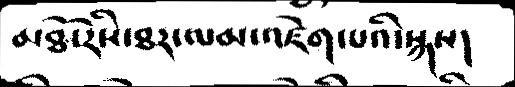མཐོ་རིས་ཐར་ལམ་འཛེག་པའི་སྐས།
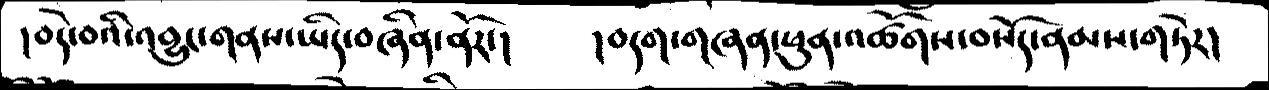།བདེ་བའི་འབྱུང་གནས་ཡིད་བཞིན་ནོར་།   །བདག་གཞན་ཕུན་འཚོགས་བསོད་ནམས་གཏེར།
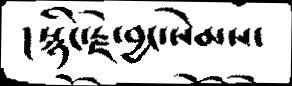།སྙིང་རྗེ་བྱང་སེམས་
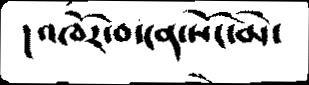།འཁོར་བ་ངན་སོང་མེ་
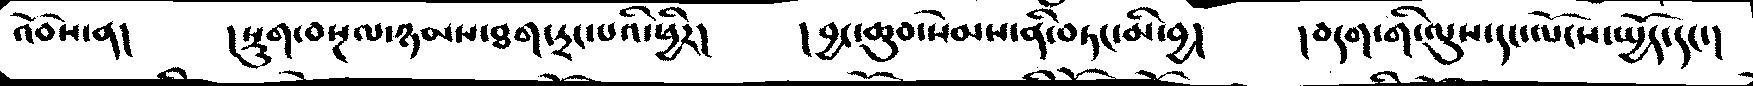འོབས་ན།   །སྡུག་བསྔལ་ཉམས་ཐག་དྲང་པའི་ཕྱིར།   །བྱང་ཆུབ་སེམས་ནི་བཏང་མི་བྱ།    །བདག་གི་ལུས་དང་ལོངས་སྤྱོད་དང་།
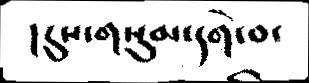།དུས་གསུམ་དགེ་བ་
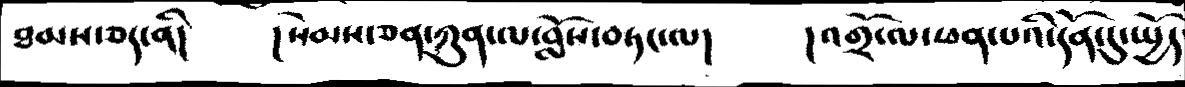ཐམས་ཅད་ནི།    །སེམས་ཅན་ཀུན་ལ་བློས་བཏང་ལ།    །འགྲོ་ལ་ཕན་པའི་དོན་དུ་སྤྱོད
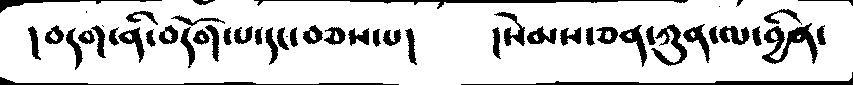།བདག་ནི་བདོག་པ་དང་བཅས་པ།    །སེམས་ཅན་ཀུན་ལ་བྱིན་
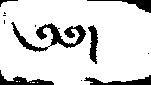༄༅།
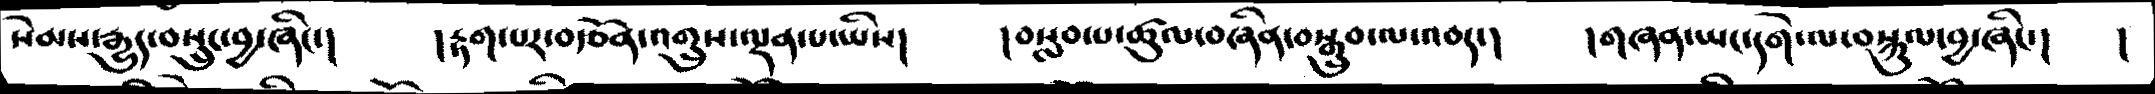སེམས་རྒྱུད་བསྲུང་བྱ་ཞིང་།    །རྟག་པར་བརྩོན་འགྲུས་ལྡན་པ་ཡིས།   །བསླབ་པ་ཚུལ་བཞིན་བསྒྲུབ་ལ་འབད་།    །གཞན་ཡང་དགེ་ལ་བསྐུལ་བྱ་ཞིང་།   །
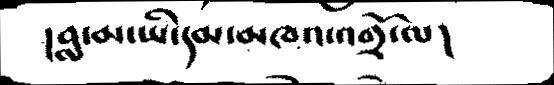།བླ་མ་ཡི་དམ་མཁའ་འགྲོ་ལ།
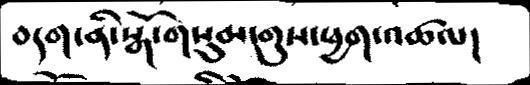བདག་ནི་སྒོ་གསུམ་གུས་ཕྱག་འཚལ།
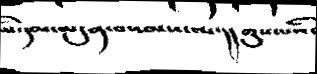ཡི་དམ་མདུན་བསམས་ལ་།། གུས་པའི་
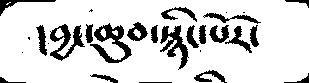།བྱང་ཆུབ་སྙིང་པོར་
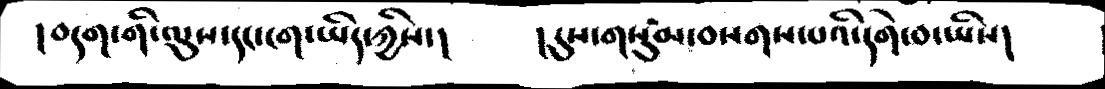།བདག་གི་ལུས་དང་ངག་ཡིད་ཀྱིས་།      །དུས་གསུམ་བསགས་པའི་དགེ་བ་ཡིས།
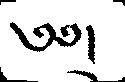༄༅།
